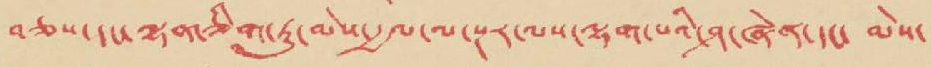བཅས་དང་ལྷན་གཅིག་ཏུ་མེས་རྒྱལ་ལ་སྔར་ལས་ལྷག་པའི་ཤ་ཞེན་དང་ མེས་
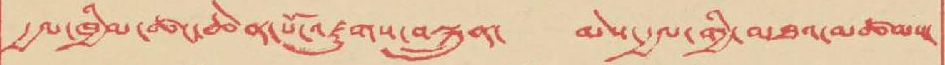རྒྱལ་ཁྱིམ་ཚང་ཆེན་པོ་འཛུགས་བསྐྲུན་ མེས་རྒྱལ་གྱི་མཐའ་མཚམས་
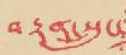བརྟན་སྲུང་
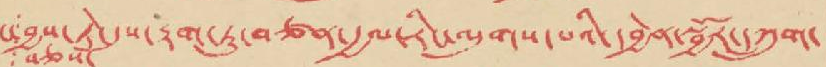བྱས་ཏེ་དུས་རྟག་ཏུ་བཙན་རྒྱལ་རིང་ལུགས་པའི་དབྱེན་སྦྱོར་དཀྲུག་
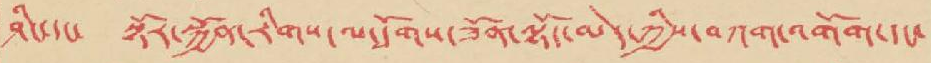ཤིང་དང་ སྟོར་སྐྱོན་རིགས་ལ་དོགས་ཟོན་ལྟོད་མེད་ཀྱིས་བཀག་འགོག་དང་
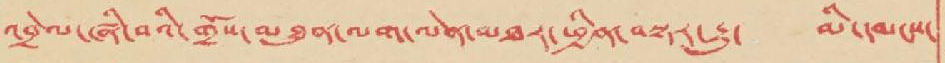འབྲེལ་ཞི་བའི་གྲོས་མཐུན་ལག་ལེན་མཐར་ཕྱིན་བསྟར་རྒྱུ་ མི་དམངས་
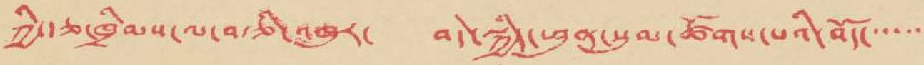ཀྱི་རྩ་ཁྲིམས་ལ་བརྩི་འཁུར་ བདེ་སྐྱིད་ཕུན་སུམ་ཚོགས་པའི་བོད་་་་་་
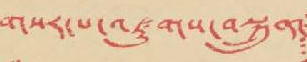གསར་པ་འཛུགས་བསྐྲུན་
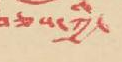བཅས་ཀྱི་
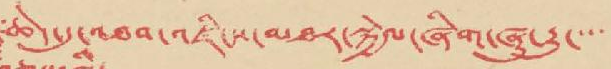ཆེད་དུ་འཐབ་འཛིངས་མཐར་སྐྱེལ་ཞིག་ཞུ་རྒྱུ་་་་
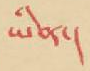ཡིན་།
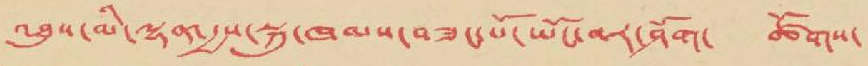འཐུས་མི་ལྷན་རྒྱས་སྐུ་ཁམས་བཟང་པོ་ཡོང་བར་ཤོག་ ཚོགས་
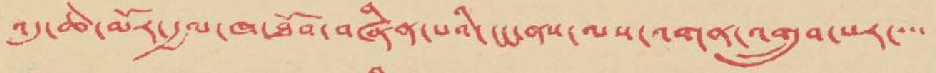འདུ་ཆེ་མོར་རྒྱལ་ཁ་ཐོབ་བཞིན་པའི་ངང་ནས་ལས་འགན་འགྲུབ་པར་་་་
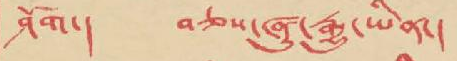ཤོག་། བཅས་ཞུ་རྒྱུ་ཡིན་།
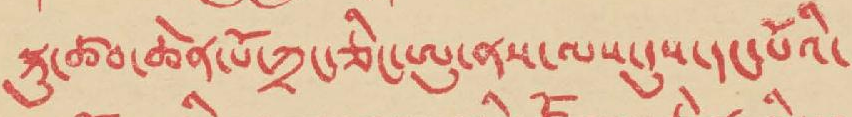སྐུ་ཚབ་ཆེན་པོ་ཀྲང་ཅིང་ཨུ་ནས་ལས་དུས་དང་པོའི་
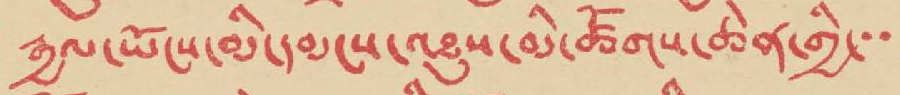རྒྱལ་ཡོངས་མི་དམངས་འཐུས་མི་ཚོགས་ཆེན་གྱི་་་
